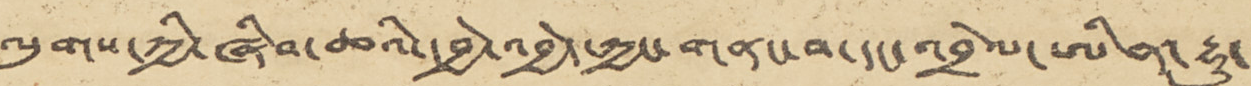ལུགས་ཀྱི་ཞིབ་ཆའི་དབྱེ་འབྱེད་ཀྱང་གནང་བ་དང་འབྲེལ་ཨིན་རྷུ་་་
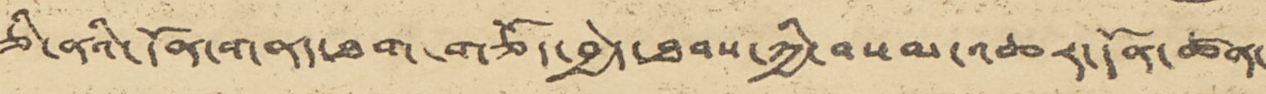ཅི་ནའི་དོན་གནད་ཐག་གཅོད་བྱེད་ཐབས་ཀྱི་བསམ་འཆར་དོན་ཚན་
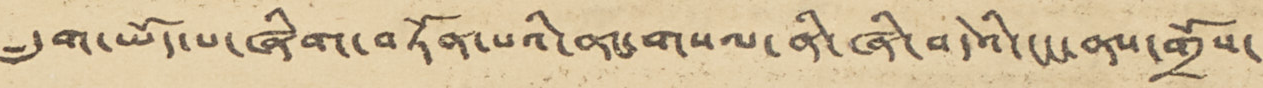དྲུག་ཡོད་པ་ཞིག་བཏོན་པའི་ནང་གསལ་ནི་ཞི་བདེའི་ངང་ནས་གྲོས་
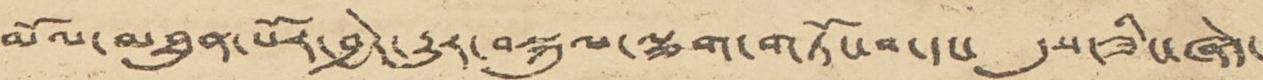མོལ་མཐུན་པོར་བྱེད་རྒྱུར་བསྐུལ་ལྕག་གཏོང་བ་དང་ དུས་ཟིང་ཞེད་
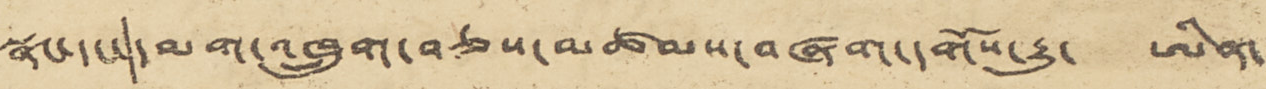སྣང་དང་།དམག་འཁྲུག་བཅས་མཚམས་བཞག་དགོས་རྒྱུ་ ཨིན་
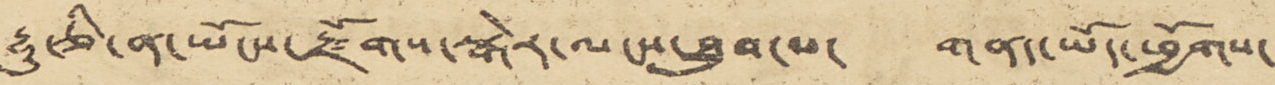རྷུ་ཅི་ན་ཡོངས་རྫོགས་སྒེར་ལངས་ཐུབ་པ་ གནད་ཡོད་ཕྱོགས་
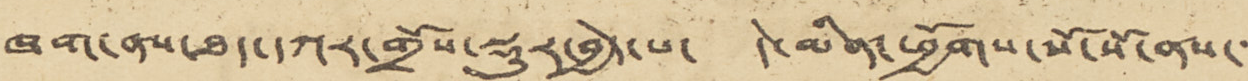ཁག་ནས་ཐད་དཀར་གྲོས་སྡུར་བྱེད་པ་ དེ་མིན་ཕྱོགས་སོ་སོ་ནས་་་
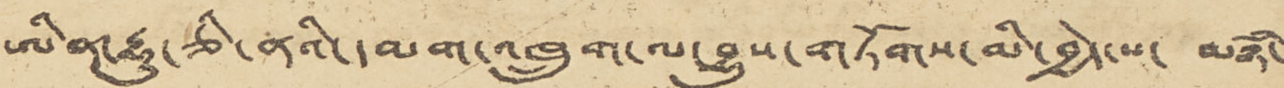ཨིན་རྷུ་ཅི་ནའི་དམག་འཁྲུག་ལ་བྱུས་གཏོགས་མི་བྱེད་པ་ མཉཾ་
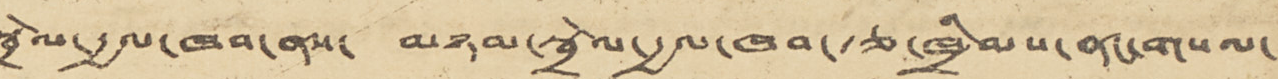སྦྲེལ་རྒྱལ་ཁབ་ནས་ མཉམ་སྦྲེལ་རྒྱལ་ཁབ་རྩ་ཁྲིམས་ནང་གསལ་
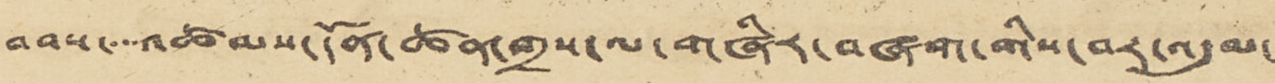བབས་་་་འཚམས་དོན་ཚན་གྲས་ལ་གཞིར་བཞག་གིས་བར་འདུམ་
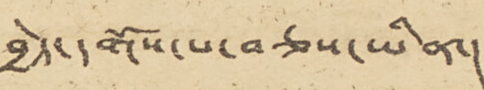བྱེད་དགོས་པ་བཅས་ཡིན་།
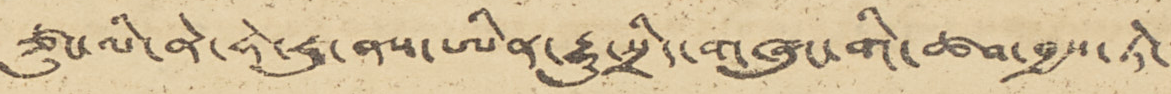ཙུང་ལི་ནེ་ཧེ་རུ་ནས་ཨིན་རྟུ་སྲིད་གཞུང་གི་ཚབ་བྱས་ཏེ་་
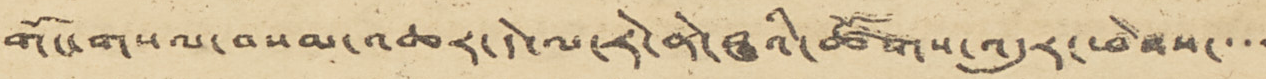གོང་གསལ་བསམ་འཆར་དེ་ལ་རེ་ནེ་ཝའི་ཚོགས་འདུར་ཕེབས་་་་
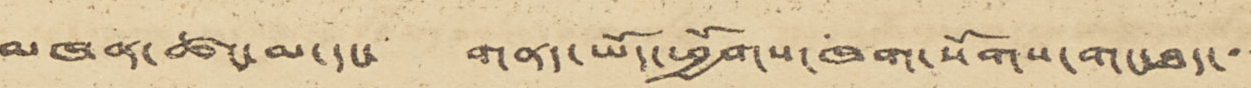མཁན་ཚང་མ་དང་ གནད་ཡོད་ཕྱོགས་ཁག་སོགས་གང་ཐད་་་
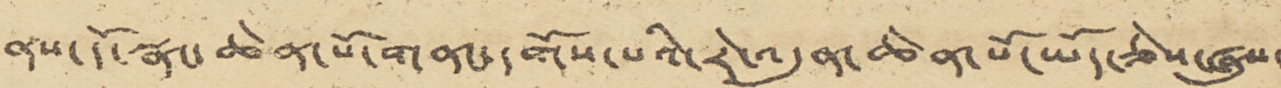ནས་དོ་སྣང་ཆེན་པོ་གནང་དགོས་པའི་རེ་འདུན་ཆེན་པོ་ཡོད་ཅེས་ཞུས་
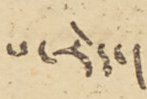པ་རེད་།
